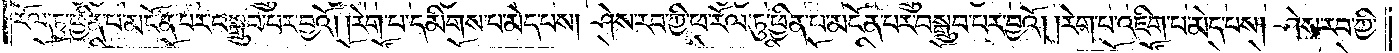རོལ་ཏུ་ཕྱིན་པ་མངོན་པར་བསྒྲུབ་པར་བྱའོ། །རེག་པ་དམིགས་པ་མེད་པས། ཤེས་རབ་ཀྱི་ཕ་རོལ་ཏུ་ཕྱིན་པ་མངོན་པར་བསྒྲུབ་པར་བྱའོ། །རེག་པ་འཇིག་པ་མེད་པས། ཤེས་རབ་ཀྱི་
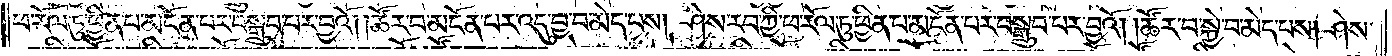ཕ་རོལ་ཏུ་ཕྱིན་པ་མངོན་པར་བསྒྲུབ་པར་བྱའོ། །ཚོར་བ་མངོན་པར་འདུ་བྱ་བ་མེད་པས། ཤེས་རབ་ཀྱི་ཕ་རོལ་ཏུ་ཕྱིན་པ་མངོན་པར་བསྒྲུབ་པར་བྱའོ། །ཚོར་བ་སྐྱེ་བ་མེད་པས། ཤེས་
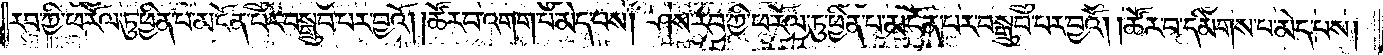རབ་ཀྱི་ཕ་རོལ་ཏུ་ཕྱིན་པ་མངོན་པར་བསྒྲུབ་པར་བྱའོ། །ཚོར་བ་འགག་པ་མེད་པས། ཤེས་རབ་ཀྱི་ཕ་རོལ་ཏུ་ཕྱིན་པ་མངོན་པར་བསྒྲུབ་པར་བྱའོ། །ཚོར་བ་དམིགས་པ་མེད་པས།
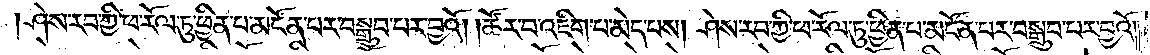ཤེས་རབ་ཀྱི་ཕ་རོལ་ཏུ་ཕྱིན་པ་མངོན་པར་བསྒྲུབ་པར་བྱའོ། །ཚོར་བ་འཇིག་པ་མེད་པས། ཤེས་རབ་ཀྱི་ཕ་རོལ་ཏུ་ཕྱིན་པ་མངོན་པར་བསྒྲུབ་པར་བྱའོ། །
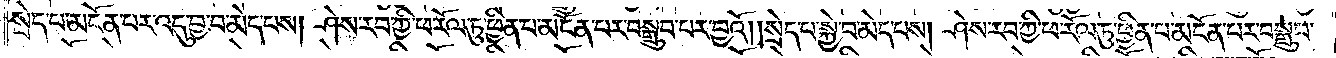སྲིད་པ་མངོན་པར་འདུ་བྱ་བ་མེད་པས། ཤེས་རབ་ཀྱི་ཕ་རོལ་ཏུ་ཕྱིན་པ་མངོན་པར་བསྒྲུབ་པར་བྱའོ། །སྲེད་པ་སྐྱེ་བ་མེད་པས། ཤེས་རབ་ཀྱི་ཕ་རོལ་ཏུ་ཕྱིན་པ་མངོན་པར་བསྒྲུབ་
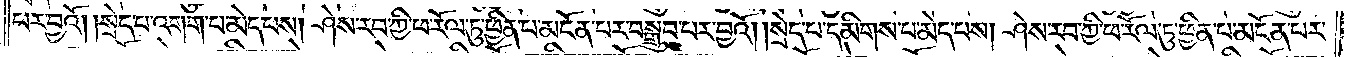པར་བྱའོ། །སྲེད་པ་འགག་པ་མེད་པས། ཤེས་རབ་ཀྱི་ཕ་རོལ་ཏུ་ཕྱིན་པ་མངོན་པར་བསྒྲུབ་པར་བྱའོ། །སྲེད་པ་དམིགས་པ་མེད་པས། ཤེས་རབ་ཀྱི་ཕ་རོལ་ཏུ་ཕྱིན་པ་མངོན་པར་
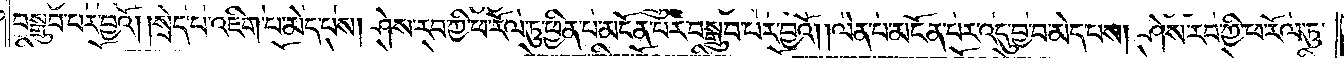བསྒྲུབ་པར་བྱའོ། །སྲེད་པ་འཇིག་པ་མེད་པས། ཤེས་རབ་ཀྱི་ཕ་རོལ་ཏུ་ཕྱིན་པ་མངོན་པར་བསྒྲུབ་པར་བྱའོ། །ལེན་པ་མངོན་པར་འདུ་བྱ་བ་མེད་པས། ཤེས་རབ་ཀྱི་ཕ་རོལ་ཏུ་
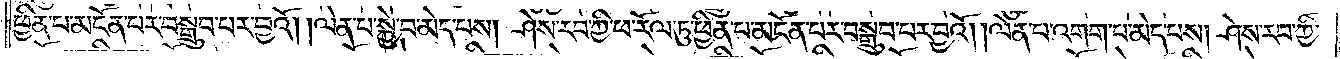ཕྱིན་པ་མངོན་པར་བསྒྲུབ་པར་བྱའོ། །ལེན་པ་སྐྱེ་བ་མེད་པས། ཤེས་རབ་ཀྱི་ཕ་རོལ་ཏུ་ཕྱིན་པ་མངོན་པར་བསྒྲུབ་པར་བྱའོ། །ལེན་པ་འགག་པ་མེད་པས། ཤེས་རབ་ཀྱི་
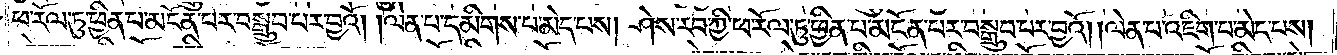ཕ་རོལ་ཏུ་ཕྱིན་པ་མངོན་པར་བསྒྲུབ་པར་བྱའོ། །ལེན་པ་དམིགས་པ་མེད་པས། ཤེས་རབ་ཀྱི་ཕ་རོལ་ཏུ་ཕྱིན་པ་མངོན་པར་བསྒྲུབ་པར་བྱའོ། །ལེན་པ་འཇིག་པ་མེད་པས།
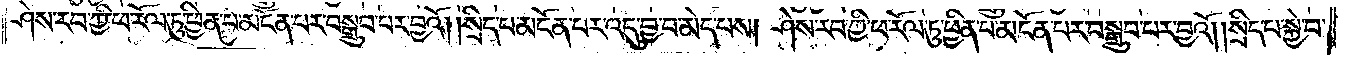ཤེས་རབ་ཀྱི་ཕ་རོལ་ཏུ་ཕྱིན་པ་མངོན་པར་བསྒྲུབ་པར་བྱའོ། །སྲིད་པ་མངོན་པར་འདུ་བྱ་བ་མེད་པས། ཤེས་རབ་ཀྱི་ཕ་རོལ་ཏུ་ཕྱིན་པ་མངོན་པར་བསྒྲུབ་པར་བྱའོ། །སྲིད་པ་སྐྱེ་བ་
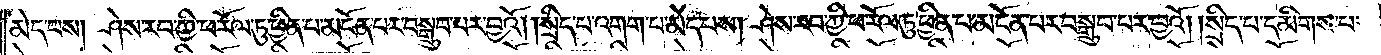མེད་པས། ཤེས་རབ་ཀྱི་ཕ་རོལ་ཏུ་ཕྱིན་པ་མངོན་པར་བསྒྲུབ་པར་བྱའོ། །སྲིད་པ་འགག་པ་མེད་པས། ཤེས་རབ་ཀྱི་ཕ་རོལ་ཏུ་ཕྱིན་པ་མངོན་པར་བསྒྲུབ་པར་བྱའོ། །སྲིད་པ་དམིགས་པ་
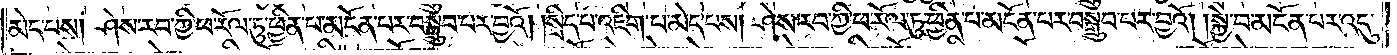མེད་པས། ཤེས་རབ་ཀྱི་ཕ་རོལ་ཏུ་ཕྱིན་པ་མངོན་པར་བསྒྲུབ་པར་བྱའོ། །སྲིད་པ་འཇིག་པ་མེད་པས། ཤེས་རབ་ཀྱི་ཕ་རོལ་ཏུ་ཕྱིན་པ་མངོན་པར་བསྒྲུབ་པར་བྱའོ། །སྐྱེ་བ་མངོན་པར་འདུ་
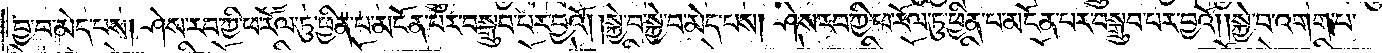བྱ་བ་མེད་པས། ཤེས་རབ་ཀྱི་ཕ་རོལ་ཏུ་ཕྱིན་པ་མངོན་པར་བསྒྲུབ་པར་བྱའོ། །སྐྱེ་བ་སྐྱེ་བ་མེད་པས། ཤེས་རབ་ཀྱི་ཕ་རོལ་ཏུ་ཕྱིན་པ་མངོན་པར་བསྒྲུབ་པར་བྱའོ། །སྐྱེ་བ་འགག་པ་
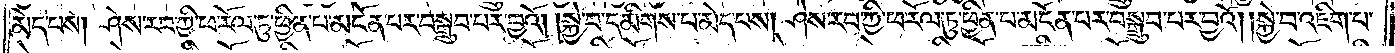མེད་པས། ཤེས་རབ་ཀྱི་ཕ་རོལ་ཏུ་ཕྱིན་པ་མངོན་པར་བསྒྲུབ་པར་བྱའོ། །སྐྱེ་བ་དམིགས་པ་མེད་པས། ཤེས་རབ་ཀྱི་ཕ་རོལ་ཏུ་ཕྱིན་པ་མངོན་པར་བསྒྲུབ་པར་བྱའོ། །སྐྱེ་བ་འཇིག་པ་
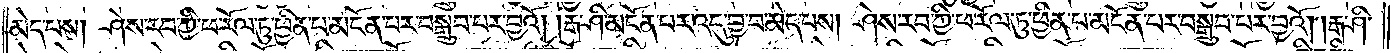མེད་པས། ཤེས་རབ་ཀྱི་ཕ་རོལ་ཏུ་ཕྱིན་པ་མངོན་པར་བསྒྲུབ་པར་བྱའོ། །རྒ་ཤི་མངོན་པར་འདུ་བྱ་བ་མེད་པས། ཤེས་རབ་ཀྱི་ཕ་རོལ་ཏུ་ཕྱིན་པ་མངོན་པར་བསྒྲུབ་པར་བྱའོ། །རྒ་ཤི་
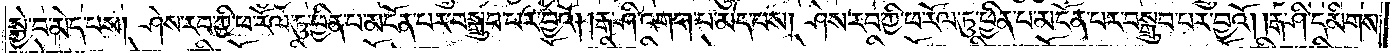སྐྱེ་བ་མེད་པས། ཤེས་རབ་ཀྱི་ཕ་རོལ་ཏུ་ཕྱིན་པ་མངོན་པར་བསྒྲུབ་པར་བྱའོ། །རྒ་ཤི་འགག་པ་མེད་པས། ཤེས་རབ་ཀྱི་ཕ་རོལ་ཏུ་ཕྱིན་པ་མངོན་པར་བསྒྲུབ་པར་བྱའོ། །རྒ་ཤི་དམིགས་
